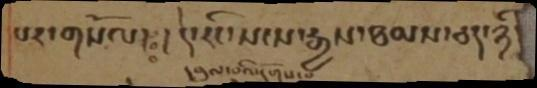པར་གསོལ། ཿ  །དེ་རིང་སངས་རྒྱས་ཐམས་ཅད་ཉིད་
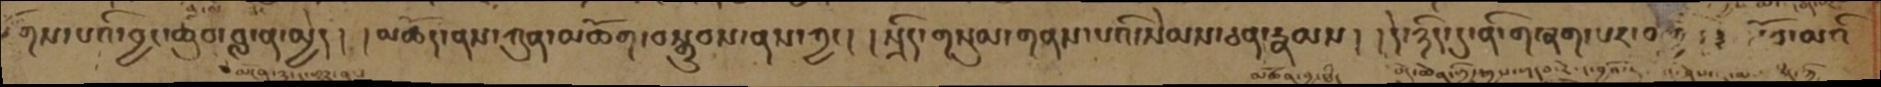རྫོགས་པའི་བྱང་ཆུབ་བླ་ན་མྱེད ། །མཆོད་ནས་ཀུན་མཆོག་བསྒྲུབས་ནས་ཀྱང་ ། །སྲིད་གསུམ་གནས་པའི་སེམས་ཅན་རྣམས ། །དེ་ཉིད་དུ་ནི་གཞག་པར་བགྱི ། །ཕོ་མའི་
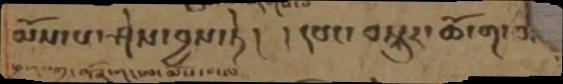མོས་པ་ཤེས་བྱས་ཏེ ། །དབང་བསྐུར་ཆོ་ག་བ
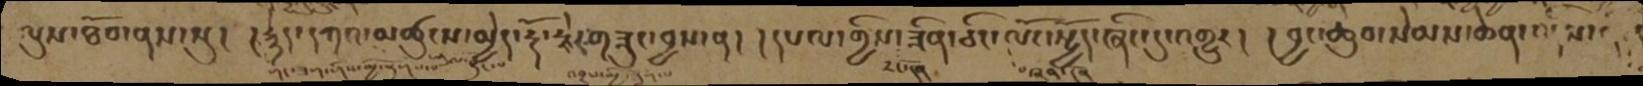ལུས་ཐོབ་ནས་སུ། །རྙེད་དཀའ་མཚུངས་མྱེད་རྡོ་རྗེར་གཟུང་བྱས་ན། །དཔལ་གྱིས་ཟིན་ཅིང་ལོང་སྤྱོད་ཞིང་དུ་འགྱུར། །བྱང་ཆུབ་སེམས་ཆེན་འདིས་ནི
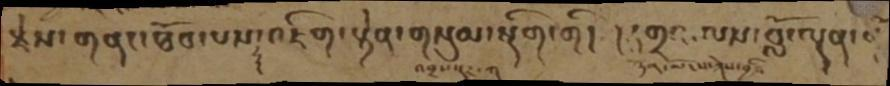རྗེས་གནང་ཐོབ་པས་འཇིག་རྟེན་གསུམ་སྡིག་གི། །ཉོན་མོངས་ཤེས་བྱའི་དགྲའ་ལས་བློ་ལྡན་ནོ
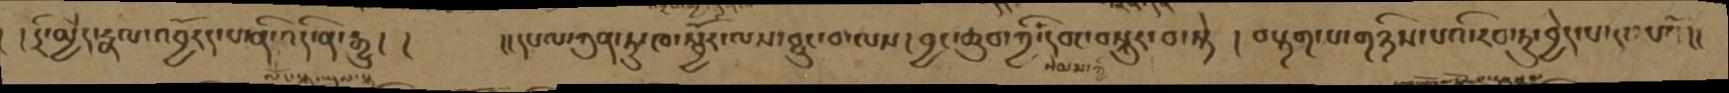། །དྲི་མྱེད་རྣལ་འབྱོརད་པ་ནི་འདི་ན་རྒྱུ། །     །།དཔལ་ཀུན་ཏུ་ཁ་སྦྱོར་ལས་བྱུང་བ་ལས། བྱང་ཆུབ་ཀྱི་སེམས་གྱི་དབང་བསྐུར་བ་སྟེ ། བརྟག་པ་གཉིས་པའི་རབ་ཏུ་བྱེད་པ་དང་པའོ།།
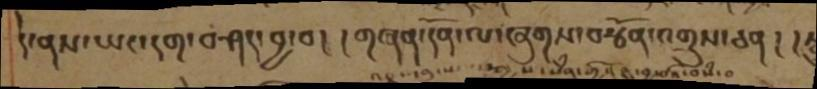དེ་ནས་ཡང་དག་བཤད་བྱ་བ། །གཞན་དོན་ལ་ཞུགས་བརྩོན་འགྲུས་ཅན ། །
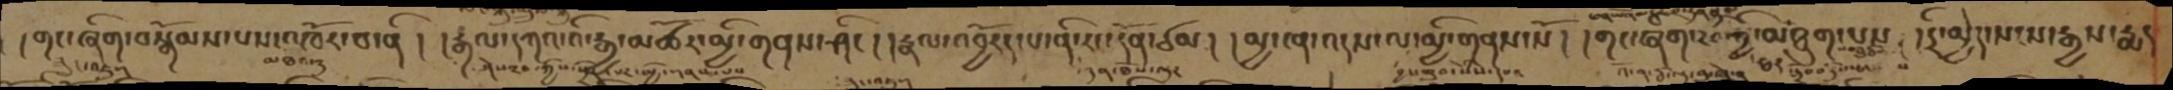གང་ཞིག་བསྒོམས་པས་འཁོར་བ་ནི ། །རྒལ་དཀའ་འི་རྒྱ་མཚོར་མྱི་གནས་ཤིང ། །རྣལ་འབྱོརད་པ་ནི་རང་དོན་ཙམ། །མྱ་ངན་འདས་ལ་མྱི་གནས་སོ ། །གང་ཞིག་རབ་ཀྱི་ཐར་མཐུག་པས། །དྲི་མྱེད་སངས་རྒྱས་རྨད
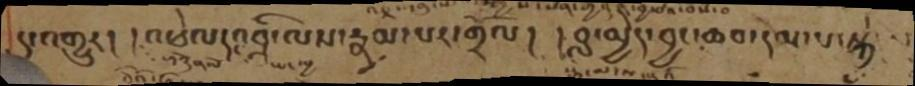དུ་འགྱུར། །འཕེལདང་འབྲི་ལས་རྣམ་པར་གྲོལ། །བླ་མྱེད་བྱང་ཆུབ་དམ་པ་སྐྱེ། །
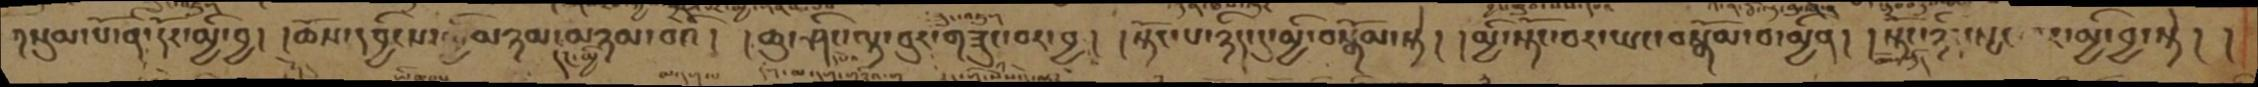གསུམ་པོ་ནི་དོར་མྱི་བྱ། །ཆོས་དབྱིངས་མཉམ་དང་མྱི་མཉམ་བའི། །ཆུ་ཤིང་ལྟ་བུར་གཟུང་བར་བྱ། །སྟོང་པ་ཉིད་དུ་མྱི་བསྒོམ་སྟེ། །མྱི་སྟོང་བར་ཡང་བསྒོམ་པ་མྱིན། །སྟོང་ཉིད་སྤང་བར་མྱི་བྱ་སྟེ། །
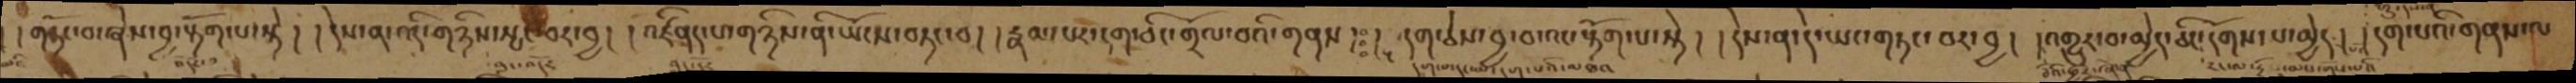། །གཏོང་བ་ཞེས་བྱ་རྟོག་པ་སྟེ། །དེས་ན་འདི་གཉིས་སྤང་བར་བྱ། །འཛིནད་པ་གཉིས་ནི་ཡོངས་བཏང་བ།ཿ།རྣམ་པར་དག་ཅིང་གྲོལ་བའི་གནས།ཿ །དག་ཅེས་བྱ་བ་འང་རྟོག་པ་སྟེ། །དེས་ན་དེ་ཡང་གཏང་བར་བྱ། །འགྱུར་བ་མྱེད་ཅིང་དགོས་པ་མྱེད། །དག་པའི་གནས་ལ
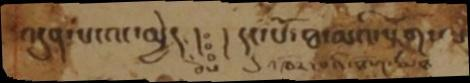འདུན་པ་འང་མྱེད་བས། ༔ །དང་པོ་ཐ་མའི་རྟོགས་པ་
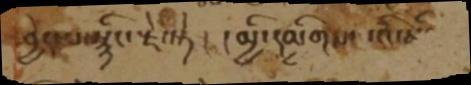བྱེད་པ་སྙིང་རྗེ་སྟེ། །མྱི་དམིགས་པའི
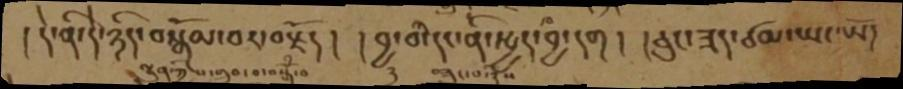།དེ་ནི་དེ་ཉིད་བསྒོམ་བར་བརྗོད། །བྱ་བ་དང་ནི་སྤྱད་བྱ་དག། །ཅུང་ཟད་ཙམ་ཡང་ཡོད་
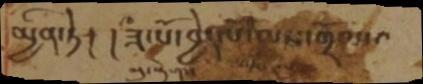མྱིན་ཏེ། །ཟ་པོ་བྱེད་པོ་ལས་གྲོལ་བ་
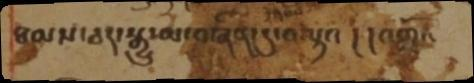ཐམས་ཅད་སྒྱུ་མ་བཞིན་དུ་བལྟའ། །འགོ
